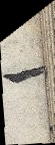十
